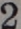2
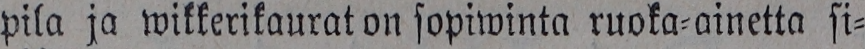pila ja wikkerikaurat on sopiwinta ruoka-ainetta si-
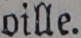oille.
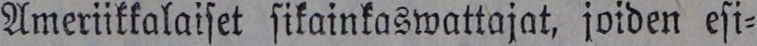Ameriikkalaiset sikainkaswattajat, joiden esi-
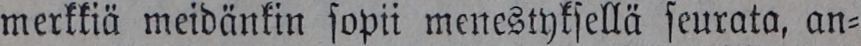merkkiä meidänkin sopii menestyksellä seurata, an-
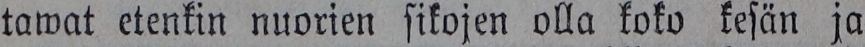tawat etenkin nuorien sikojen olla koko kesän ja
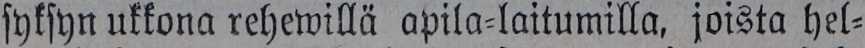syksyn ukkona rehewillä apila-laitumilla, joista hel-
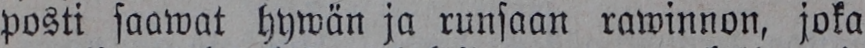posti saawat hywän ja runsaan rawinnon, joka
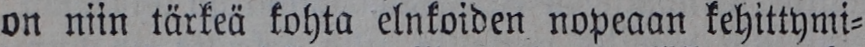on niin tärkeä kohta elnkoiden nopeaan kehittymi-
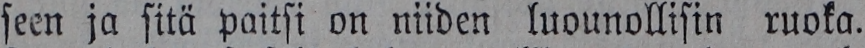seen ja sitä paitsi on niiden luounollisin ruoka.
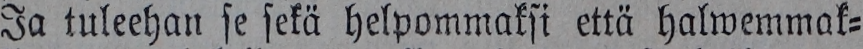Ja tuleehan se sekä helpommaksi että halwemmak-
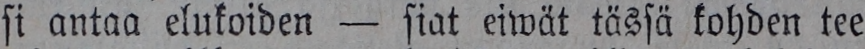si antaa elukoiden — siat eiwät tässä kohden tee
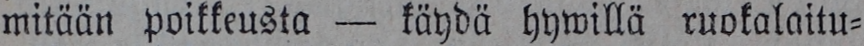mitään poikkeusta — käydä hywillä ruokalaitu-
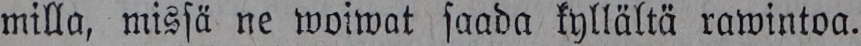milla, missä ne woiwat saada kyllältä rawintoa.
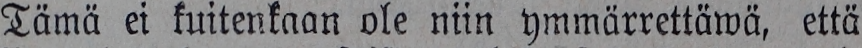Tämä ei kuitenkaan ole niin ymmärrettäwä, että
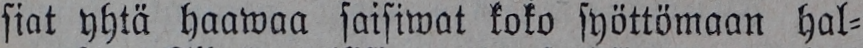siat yhtä haawaa saisiwat koko syöttömaan hal-
